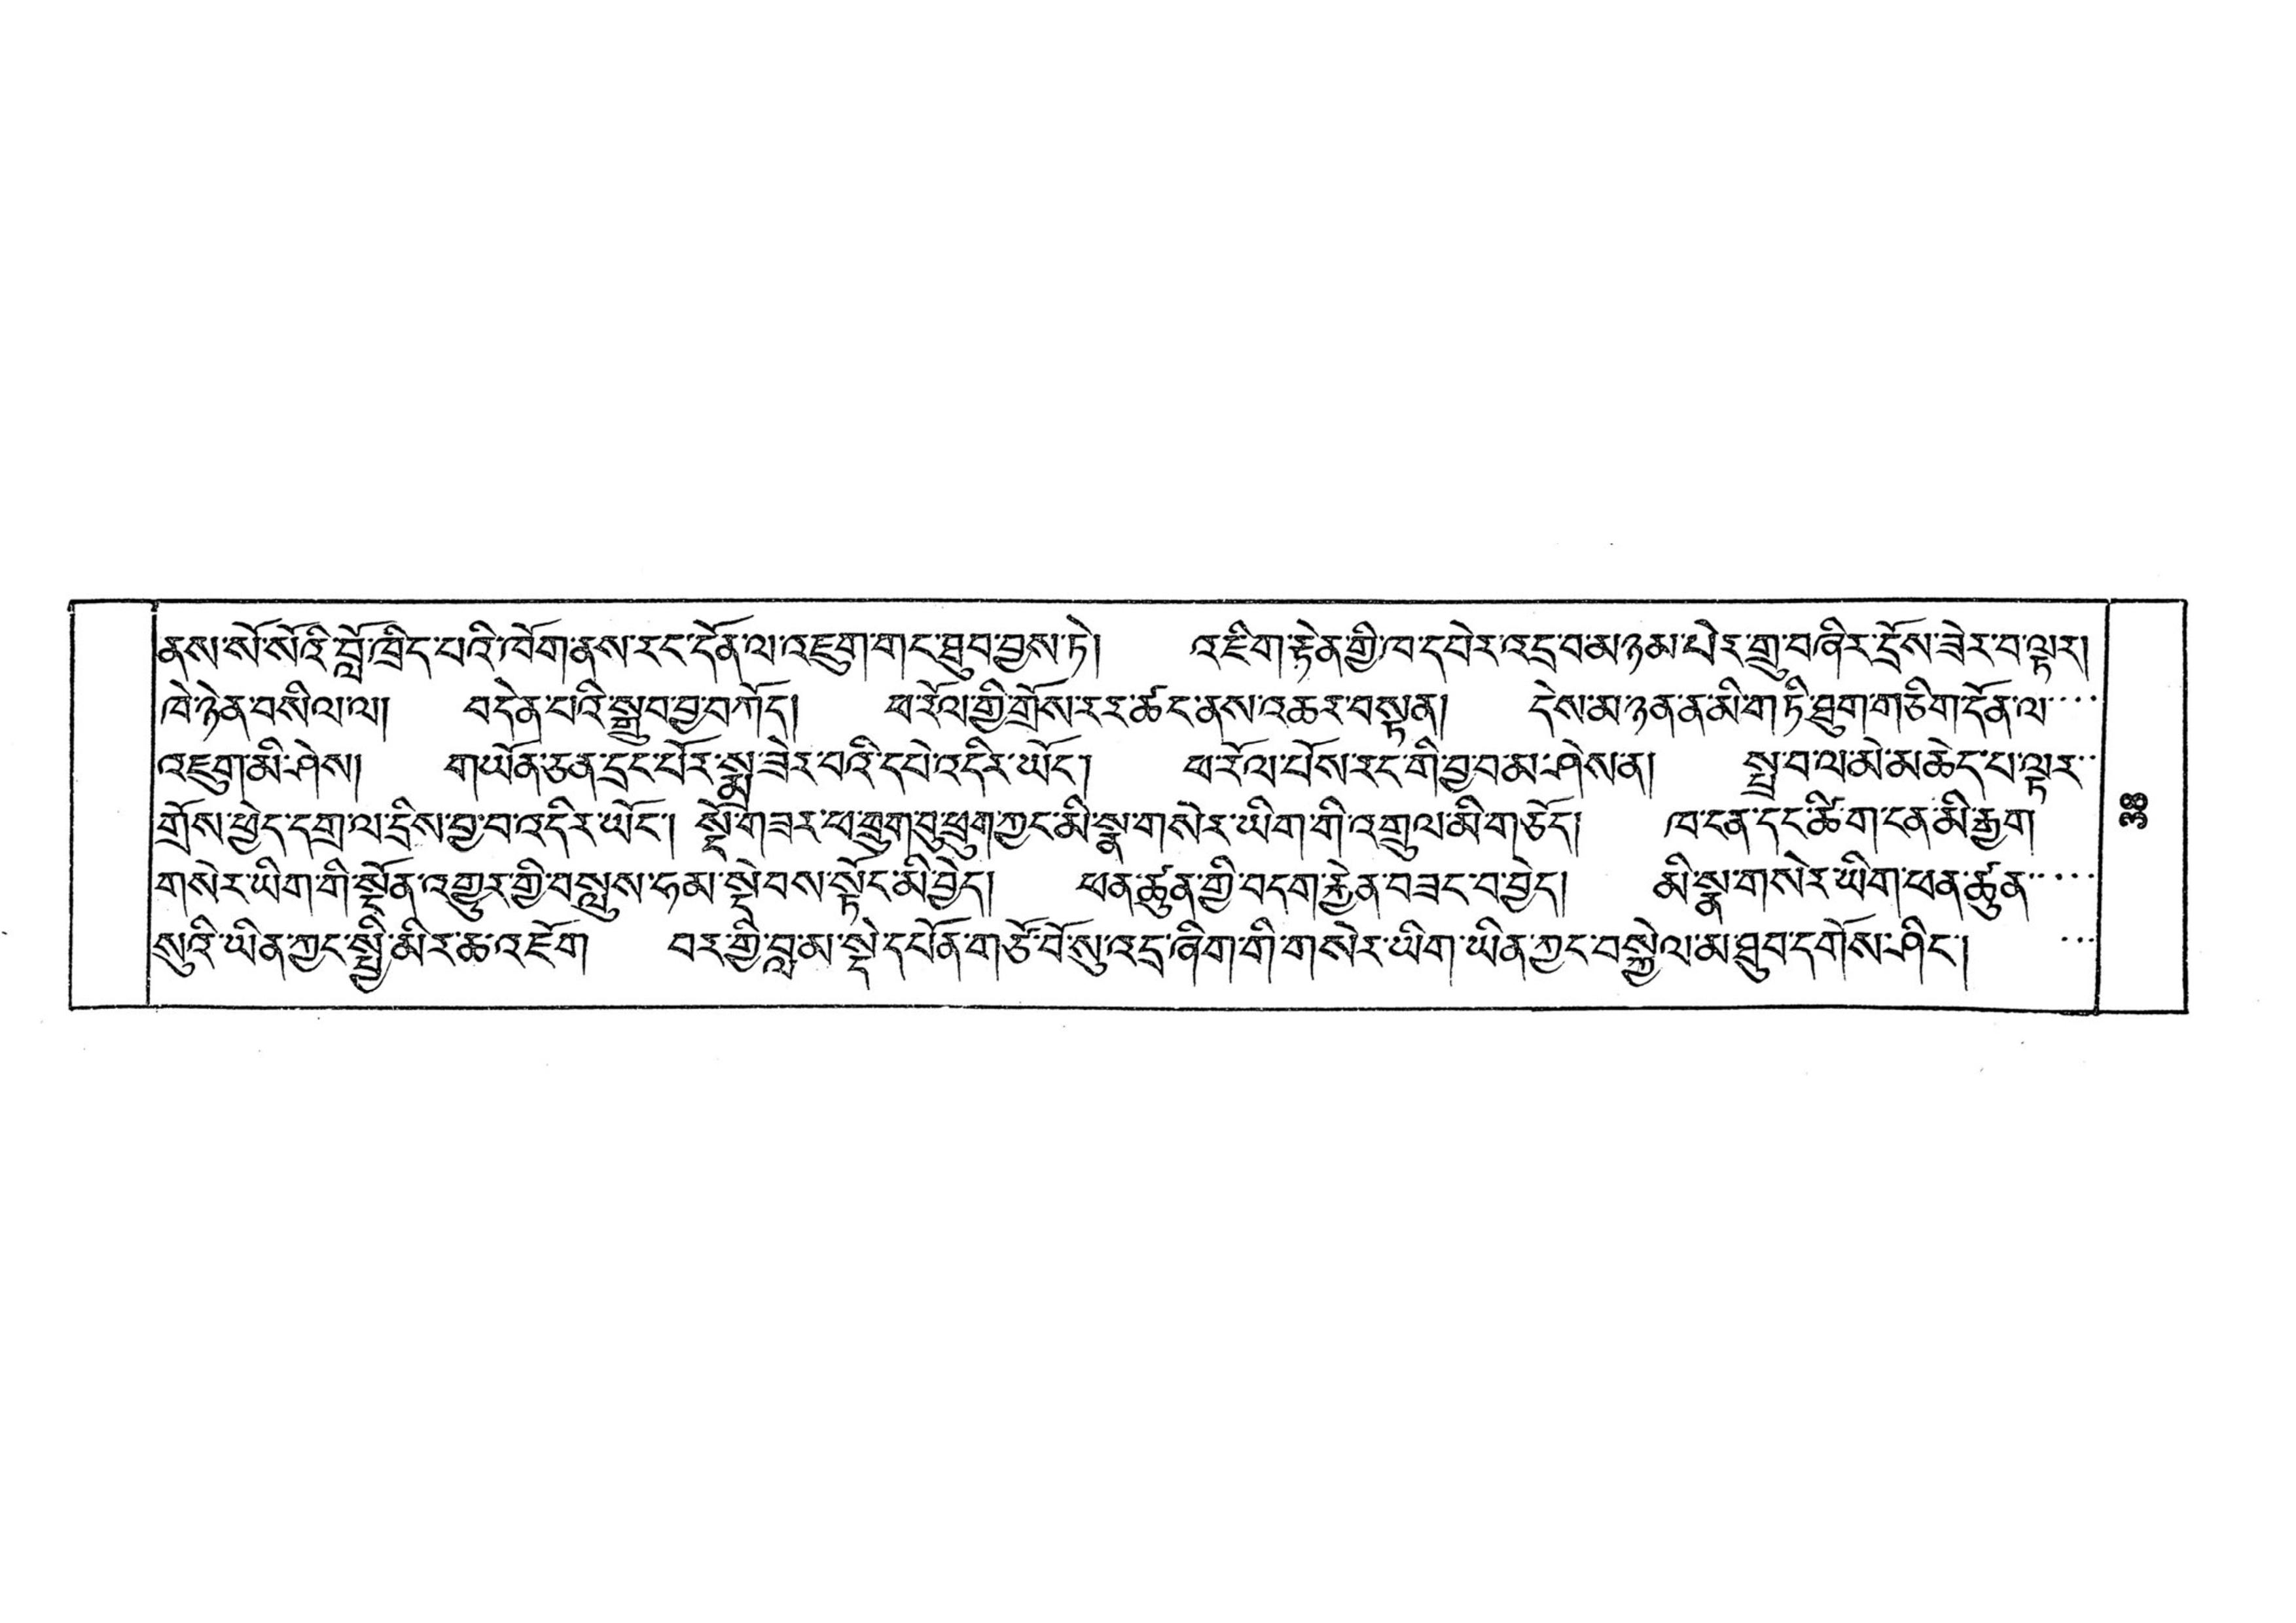ནས་སོ་སོའི་བློ་ཁྲིད་པའི་ཁོག་ནས་རང་དོན་ལ་འཇུག་གང་ཐུབ་བྱས་ཏེ། འཇིག་རྟེན་གྱི་ཁ་དཔེར་འདྲ་བ་མཉམ་པེར་གྲུ་བཞིར་དྲོས་ཟེར་བ་ལྟར།
ཁེ་ཉེན་བསིལ་ལ། བདེན་པའི་སྒྲུབ་བྱ་བཀོད། ཕ་རོལ་གྱི་གྲོས་རར་ཚང་ནས་འཆར་བསྟན། དེས་མ་ཉན་ན་མི་གཏི་ཐུག་གཅིག་དོན་ལ་་་་
འཇུག་མི་ཤེས། གཡོན་ཅན་དྲང་པོར་སྨྲ་ཟེར་བའི་དཔེ་འདིར་ཡོང་། ཕ་རོལ་པོས་རང་གི་བྱ་བ་མ་ཤེས་ན། སྤྲ་བ་ལ་མེ་མཆེད་པ་ལྟར་་
གྲོས་ཕྱེད་དགྲ་ལ་དྲིས་བྱ་བ་འདིར་ཡོང་། སྔོ་གཟར་ཕ་ཕྲུག་བུ་ཕྲུག་ཀྱང་མི་སྣ་གསེར་ཡིག་གི་འགྲུལ་མི་གཅོད། ཁ་ངན་དང་ཚིག་ངན་མི་རྒྱག
གསེར་ཡིག་གི་སྔོན་འགྱུར་གྱི་བསླུས་ཧམ་སྡེབས་སྟོང་མི་བྱེད། ཕན་ཚུན་གྱི་བདག་རྐྱེན་བཟང་བ་བྱེད། མི་སྣ་གསེར་ཡིག་ཕན་ཚུན་་་་
སུའི་ཡིན་ཀྱང་སྤྱི་མིར་ཆ་འཇོག བར་གྱི་བླ་མ་སྡེ་དཔོན་གཙོ་བོ་སུ་འདྲ་ཞིག་གི་གསེར་ཡིག་ཡིན་ཀྱང་བསྐྱེལ་མ་ཐུབ་དགོས་ཤིང་། ་་་
